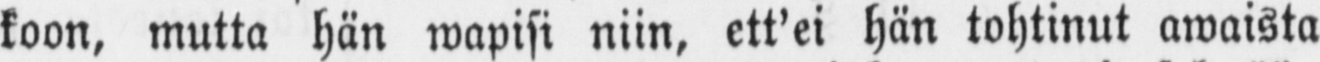koon, mutta hän wapisi niin, ett'ei hän tohtinut awaista
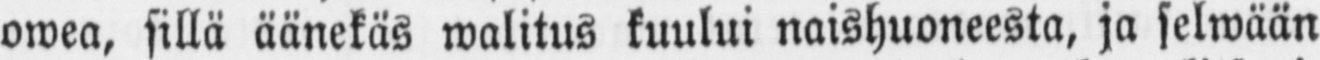owea, sillä äänekäs walitus kuului naishuoneesta, ja selwään
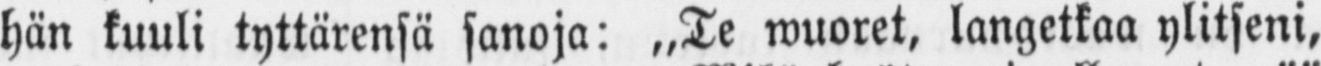hän kuuli tyttärensä sanoja: „Te wuoret, langetkaa ylitseni,
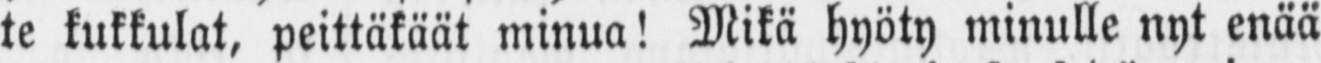te kukkulat, peittäkäät minua! Mikä hyöty minulle nyt enää
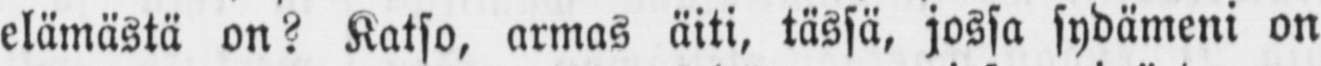elämästä on? Katso, armas äiti, tässä, jossa sydämeni on
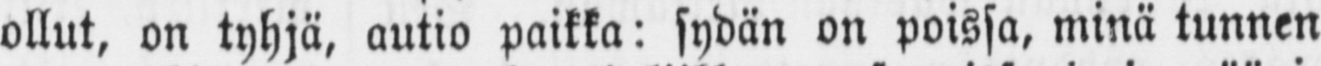ollut, on tyhjä, autio paikka: sydän on poissa, minä tunnen
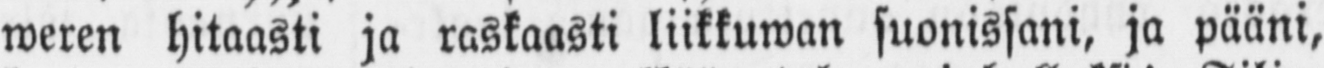weren hitaasti ja raskaasti liikkuwan suonissani, ja pääni,
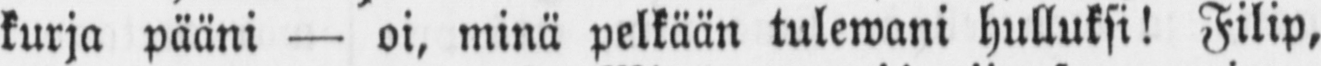kurja pääni — oi, minä pelkään tulewani hulluksi! Filip,
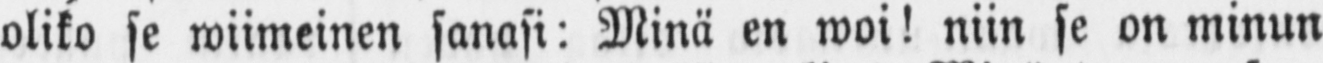oliko se wiimeinen sanasi: Minä en woi! niin se on minun
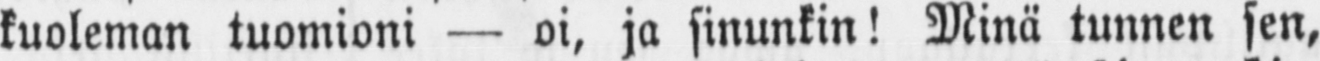kuoleman tuomioni — oi, ja sinunkin! Minä tunnen sen,
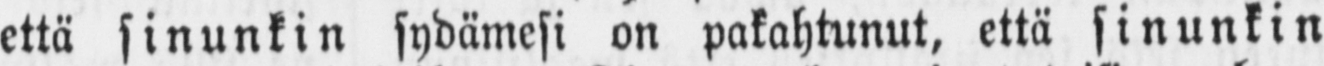että sinunkin sydämesi on pakahtunut, että sinunkin
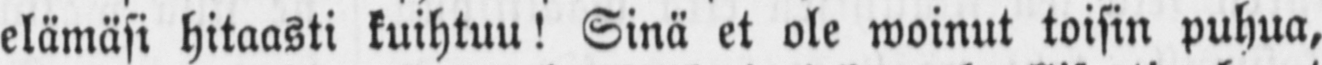elämäsi hitaasti kuihtuu! Sinä et ole woinut toisin puhua,
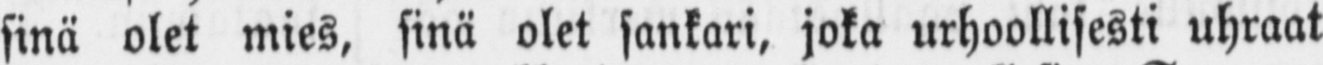sinä olet mies, sinä olet sankari, joka urhoollisesti uhraat
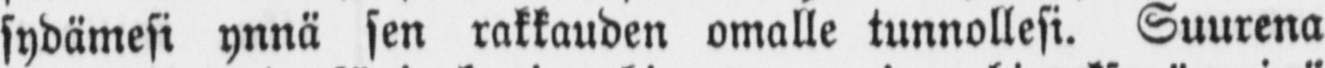sydämesi ynnä sen rakkauden omalle tunnollesi. Suurena
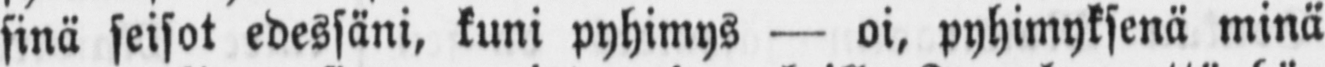sinä seisot edessäni, kuni pyhimys — oi, pyhimyksenä minä
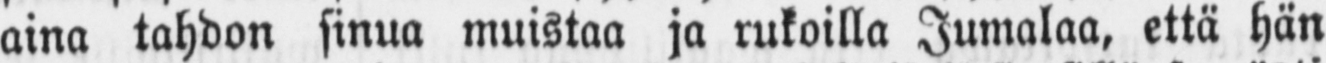aina tahdon sinua muistaa ja rukoilla Jumalaa, että hän
